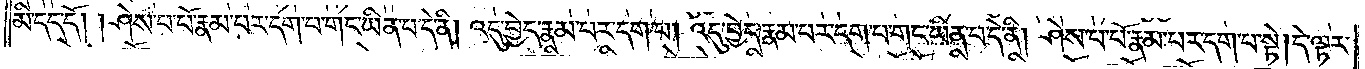མི་དད་དོ། །ཤེས་པ་པོ་རྣམ་པར་དག་པ་གང་ཡིན་པ་དེ་ནི། འདུ་བྱེད་རྣམ་པར་དག་པ། འདུ་བྱེད་རྣམ་པར་དག་པ་གང་ཡིན་པ་དེ་ནི། ཤེས་པ་པོ་རྣམ་པར་དག་པ་སྟེ། དེ་ལྟར་
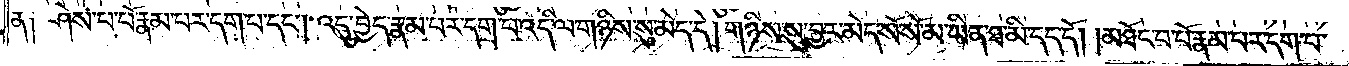ན༑ ཤེས་པ་པོ་རྣམ་པར་དག་པ་དང༌། འདུ་བྱེད་རྣམ་པར་དག་པ་འདི་ལ་གཉིས་སུ་མེད་དེ། གཉིས་སུ་བྱར་མེད་སོ་སོ་མ་ཡིན་ཐ་མི་དད་དོ། །མཐོང་བ་པོ་རྣམ་པར་དག་པ་
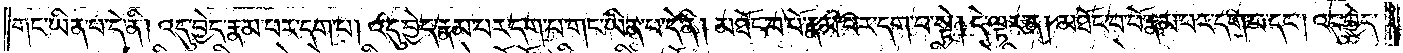གང་ཡིན་པ་དེ་ནི། འདུ་བྱེད་རྣམ་པར་དག་པ། འདུ་བྱེད་རྣམ་པར་དག་པ་གང་ཡིན་པ་དེ་ནི། མཐོང་བ་པོ་རྣམ་པར་དག་པ་སྟེ། དེ་ལྟར་ན། མཐོང་བ་པོ་རྣམ་པར་དག་པ་དང༌། འདུ་བྱེད་
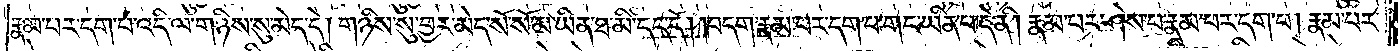རྣམ་པར་དག་པ་འདི་ལ་གཉིས་སུ་མེད་དེ། གཉིས་སུ་བྱར་མེད་སོ་སོ་མ་ཡིན་ཐ་མི་དད་དོ། །བདག་རྣམ་པར་དག་པ་གང་ཡིན་པ་དེ་ནི། རྣམ་པར་ཤེས་པ་རྣམ་པར་དག་པ། རྣམ་པར་
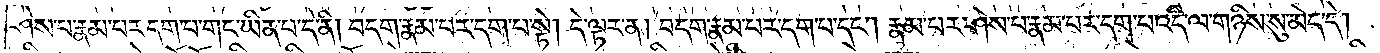ཤེས་པ་རྣམ་པར་དག་པ་གང་ཡིན་པ་དེ་ནི། བདག་རྣམ་པར་དག་པ་སྟེ། དེ་ལྟར་ན། བདག་རྣམ་པར་དག་པ་དང༌། རྣམ་པར་ཤེས་པ་རྣམ་པར་དག་པ་འདི་ལ་གཉིས་སུ་མེད་དེ།
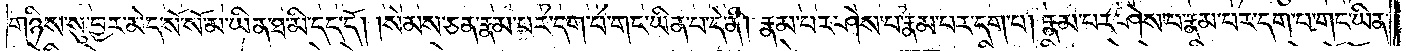གཉིས་སུ་བྱར་མེད་སོ་སོ་མ་ཡིན་ཐ་མི་དད་དོ། །སེམས་ཅན་རྣམ་པར་དག་པ་གང་ཡིན་པ་དེ་ནི། རྣམ་པར་ཤེས་པ་རྣམ་པར་དག་པ། རྣམ་པར་ཤེས་པ་རྣམ་པར་དག་པ་གང་ཡིན་
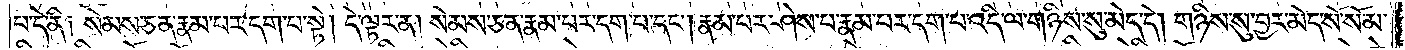པ་དེ་ནི༑ སེམས་ཅན་རྣམ་པར་དག་པ་སྟེ། དེ་ལྟར་ན། སེམས་ཅན་རྣམ་པར་དག་པ་དང༌། རྣམ་པར་ཤེས་པ་རྣམ་པར་དག་པ་འདི་ལ་གཉིས་སུ་མེད་དེ། གཉིས་སུ་བྱར་མེད་སོ་སོ་མ་
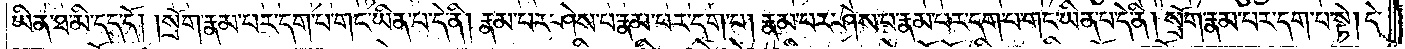ཡིན་ཐ་མི་དད་དོ། །སྲོག་རྣམ་པར་དག་པ་གང་ཡིན་པ་དེ་ནི། རྣམ་པར་ཤེས་པ་རྣམ་པར་དག་པ། རྣམ་པར་ཤེས་པ་རྣམ་པར་དག་པ་གང་ཡིན་པ་དེ་ནི། སྲོག་རྣམ་པར་དག་པ་སྟེ། དེ་
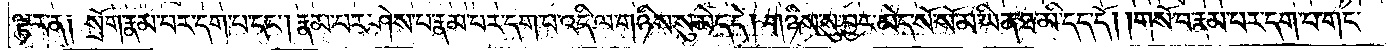ལྟར་ན༑ སྲོག་རྣམ་པར་དག་པ་དང༌། རྣམ་པར་ཤེས་པ་རྣམ་པར་དག་པ་འདི་ལ་གཉིས་སུ་མེད་དེ། གཉིས་སུ་བྱར་མེད་སོ་སོ་མ་ཡིན་ཐ་མི་དད་དོ། །གསོ་བ་རྣམ་པར་དག་པ་གང་
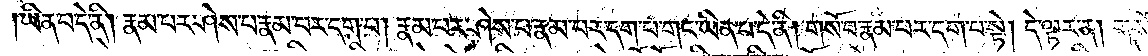ཡིན་པ་དེ་ནི། རྣམ་པར་ཤེས་པ་རྣམ་པར་དག་པ། རྣམ་པར་ཤེས་པ་རྣམ་པར་དག་པ་གང་ཡིན་པ་དེ་ནི། གསོ་བ་རྣམ་པར་དག་པ་སྟེ། དེ་ལྟར་ན། གསོ་
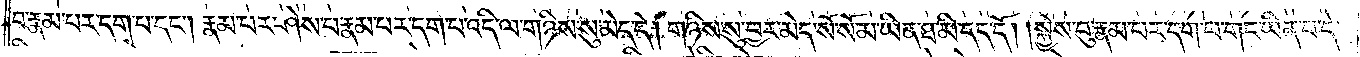བ་རྣམ་པར་དག་པ་དང༌། རྣམ་པར་ཤེས་པ་རྣམ་པར་དག་པ་འདི་ལ་གཉིས་སུ་མེད་དེ། གཉིས་སུ་བྱར་མེད་སོ་སོ་མ་ཡིན་ཐ་མི་དད་དོ། །སྐྱེས་བུ་རྣམ་པར་དག་པ་གང་ཡིན་པ་དེ་
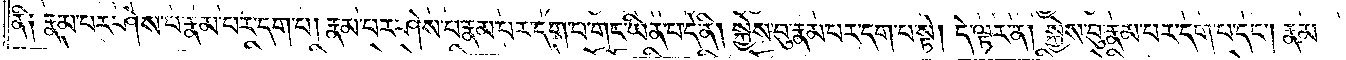ནི༑ རྣམ་པར་ཤེས་པ་རྣམ་པར་དག་པ། རྣམ་པར་ཤེས་པ་རྣམ་པར་དག་པ་གང་ཡིན་པ་དེ་ནི། སྐྱེས་བུ་རྣམ་པར་དག་པ་སྟེ། དེ་ལྟར་ན། སྐྱེས་བུ་རྣམ་པར་དག་པ་དང༌། རྣམ་
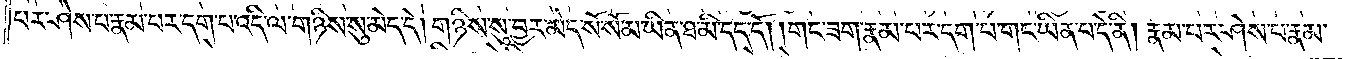པར་ཤེས་པ་རྣམ་པར་དག་པ་འདི་ལ་གཉིས་སུ་མེད་དེ། གཉིས་སུ་བྱར་མེད་སོ་སོ་མ་ཡིན་ཐ་མི་དད་དོ། །གང་ཟག་རྣམ་པར་དག་པ་གང་ཡིན་པ་དེ་ནི། རྣམ་པར་ཤེས་པ་རྣམ་
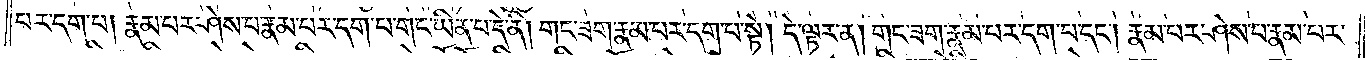པར་དག་པ། རྣམ་པར་ཤེས་པ་རྣམ་པར་དག་པ་གང་ཡིན་པ་དེ་ནི། གང་ཟག་རྣམ་པར་དག་པ་སྟེ། དེ་ལྟར་ན། གང་ཟག་རྣམ་པར་དག་པ་དང༌། རྣམ་པར་ཤེས་པ་རྣམ་པར་
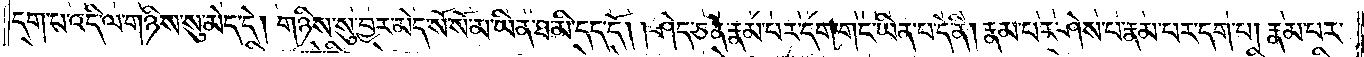དག་པ་འདི་ལ་གཉིས་སུ་མེད་དེ། གཉིས་སུ་བྱར་མེད་སོ་སོ་མ་ཡིན་ཐ་མི་དད་དོ། །ཤེད་ཅན་རྣམ་པར་དག་པ་གང་ཡིན་པ་དེ་ནི། རྣམ་པར་ཤེས་པ་རྣམ་པར་དག་པ། རྣམ་པར་
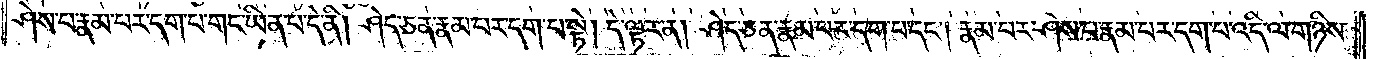ཤེས་པ་རྣམ་པར་དག་པ་གང་ཡིན་པ་དེ་ནི། ཤེད་ཅན་རྣམ་པར་དག་པ་སྟེ། དེ་ལྟར་ན། ཤེད་ཅན་རྣམ་པར་དག་པ་དང༌། རྣམ་པར་ཤེས་པ་རྣམ་པར་དག་པ་འདི་ལ་གཉིས་
